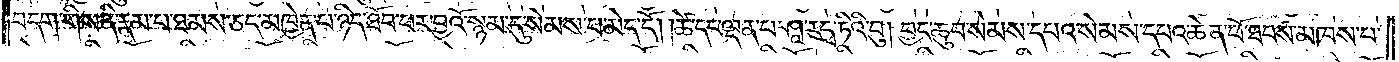བདག་གིས་ནི་རྣམ་པ་ཐམས་ཅད་མཁྱེན་པ་ཉིད་ཐོབ་པར་བྱའོ་སྙམ་དུ་སེམས་པ་མེད་དོ། །ཚེ་དང་ལྡན་པ་ཤཱ་རདྭ་ཏིའི་བུ། བྱང་ཆུབ་སེམས་དཔའ་སེམས་དཔའ་ཆེན་པོ་ཐབས་མཁས་པ་
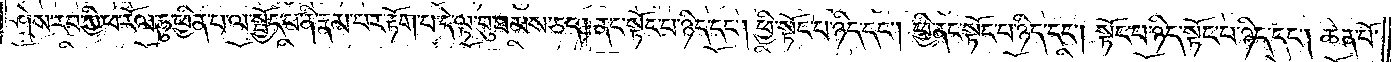ཤེས་རབ་ཀྱི་ཕ་རོལ་ཏུ་ཕྱིན་པ་ལ་སྤྱོད་པ་ནི་རྣམ་པར་རྟོག་པ་དེ་ལྟ་བུ་ཐམས་ཅད། ནང་སྟོང་པ་ཉིད་དང༌། ཕྱི་སྟོང་པ་ཉིད་དང༌། ཕྱི་ནང་སྟོང་པ་ཉིད་དང༌། སྟོང་པ་ཉིད་སྟོང་པ་ཉིད་དང༌། ཆེན་པོ་
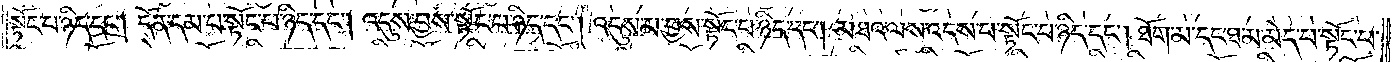སྟོང་པ་ཉིད་དང༌། དོན་དམ་པ་སྟོང་པ་ཉིད་དང༌། འདུས་བྱས་སྟོང་པ་ཉིད་དང༌། འདུས་མ་བྱས་སྟོང་པ་ཉིད་དང༌། མཐའ་ལས་འདས་པ་སྟོང་པ་ཉིད་དང༌། ཐོག་མ་དང་ཐ་མ་མེད་པ་སྟོང་པ་
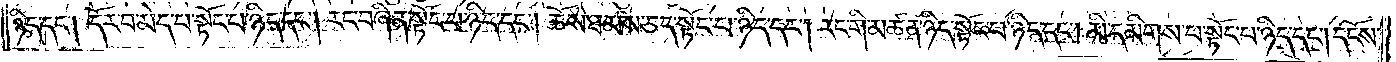ཉིད་དང༌། དོར་བ་མེད་པ་སྟོང་པ་ཉིད་དང༌། རང་བཞིན་སྟོང་པ་ཉིད་དང༌། ཆོས་ཐམས་ཅད་སྟོང་པ་ཉིད་དང༌། རང་གི་མཚན་ཉིད་སྟོང་པ་ཉིད་དང༌། མི་དམིགས་པ་སྟོང་པ་ཉིད་དང༌། དངོས་
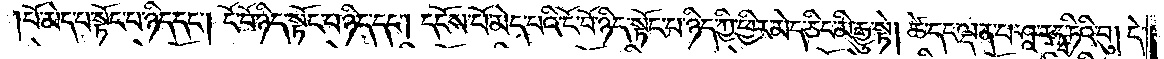པོ་མེད་པ་སྟོང་པ་ཉིད་དང༌། ངོ་བོ་ཉིད་སྟོང་པ་ཉིད་དང༌། དངོས་པོ་མེད་པའི་ངོ་བོ་ཉིད་སྟོང་པ་ཉིད་ཀྱི་ཕྱིར་མེད་ཅིང་མི་རྒྱུ་སྟེ། ཚེ་དང་ལྡན་པ་ཤཱ་རདྭ་ཏིའི་བུ། དེ་
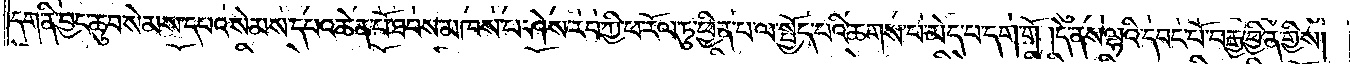དག་ནི་བྱང་ཆུབ་སེམས་དཔའ་སེམས་དཔའ་ཆེན་པོ་ཐབས་མཁས་པ་ཤེས་རབ་ཀྱི་ཕ་རོལ་ཏུ་ཕྱིན་པ་ལ་སྤྱོད་པའི་ཆགས་པ་མེད་པ་དག་གོ །དེ་ནས་ལྷའི་དབང་པོ་བརྒྱ་བྱིན་གྱིས།
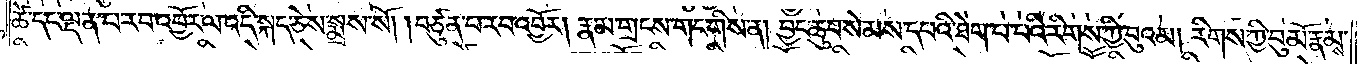ཚེ་དང་ལྡན་པ་རབ་འབྱོར་ལ་འདི་སྐད་ཅེས་སྨྲས་སོ། །བཙུན་པ་རབ་འབྱོར། རྣམ་གྲངས་གང་གིས་ན། བྱང་ཆུབ་སེམས་དཔའི་ཐེག་པ་པའི་རིགས་ཀྱི་བུའམ། རིགས་ཀྱི་བུ་མོ་རྣམས་
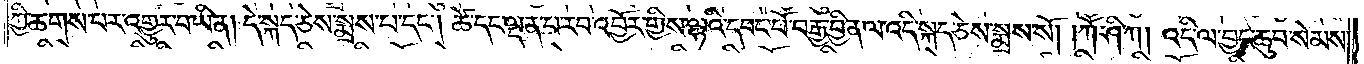ཀྱི་ཆགས་པར་འགྱུར་བ་ཡིན། དེ་སྐད་ཅེས་སྨྲས་པ་དང༌། ཚེ་དང་ལྡན་པ་རབ་འབྱོར་གྱིས་ལྷའི་དབང་པོ་བརྒྱ་བྱིན་ལ་འདི་སྐད་ཅེས་སྨྲས་སོ། །ཀཽ་ཤི་ཀ། འདི་ལ་བྱང་ཆུབ་སེམས་
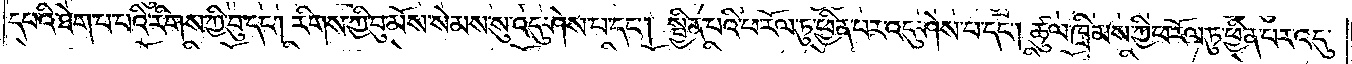དཔའི་ཐེག་པ་པའི་རིགས་ཀྱི་བུ་དང༌། རིགས་ཀྱི་བུ་མོས་སེམས་སུ་འདུ་ཤེས་པ་དང༌། སྦྱིན་པའི་ཕ་རོལ་ཏུ་ཕྱིན་པར་འདུ་ཤེས་པ་དང༌། ཚུལ་ཁྲིམས་ཀྱི་ཕ་རོལ་ཏུ་ཕྱིན་པར་འདུ་
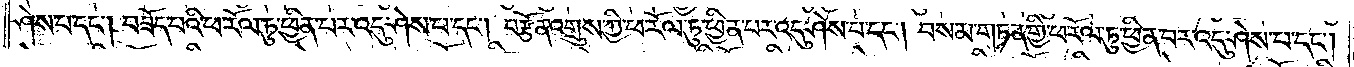ཤེས་པ་དང༌། བཟོད་པའི་ཕ་རོལ་ཏུ་ཕྱིན་པར་འདུ་ཤེས་པ་དང༌། བརྩོན་འགྲུས་ཀྱི་ཕ་རོལ་ཏུ་ཕྱིན་པར་འདུ་ཤེས་པ་དང༌། བསམ་གཏན་གྱི་ཕ་རོལ་ཏུ་ཕྱིན་པ་འདུ་ཤེས་པ་དང༌།
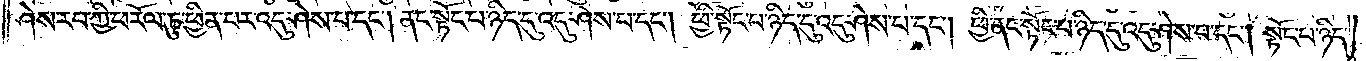ཤེས་རབ་ཀྱི་ཕ་རོལ་ཏུ་ཕྱིན་པར་འདུ་ཤེས་པ་དང༌། ནང་སྟོང་པ་ཉིད་དུ་འདུ་ཤེས་པ་དང༌། ཕྱི་སྟོང་པ་ཉིད་དུ་འདུ་ཤེས་པ་དང༌། ཕྱི་ནང་སྟོང་པ་ཉིད་དུ་འདུ་ཤེས་པ་དང༌། སྟོང་པ་ཉིད་
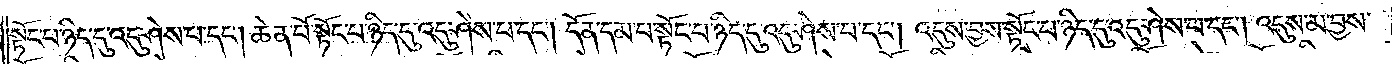སྟོང་པ་ཉིད་དུ་འདུ་ཤེས་པ་དང༌། ཆེན་པོ་སྟོང་པ་ཉིད་དུ་འདུ་ཤེས་པ་དང༌། དོན་དམ་པ་སྟོང་པ་ཉིད་དུ་འདུ་ཤེས་པ་དང༌། འདུས་བྱས་སྟོང་པ་ཉིད་དུ་འདུ་ཤེས་པ་དང༌། འདུས་མ་བྱས་
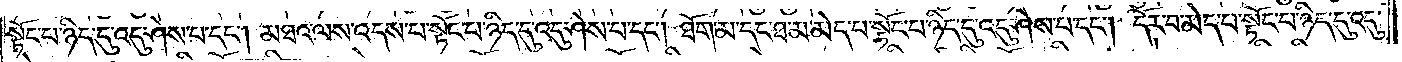སྟོང་པ་ཉིད་དུ་འདུ་ཤེས་པ་དང༌། མཐའ་ལས་འདས་པ་སྟོང་པ་ཉིད་དུ་འདུ་ཤེས་པ་དང༌། ཐོག་མ་དང་ཐ་མ་མེད་པ་སྟོང་པ་ཉིད་དུ་འདུ་ཤེས་པ་དང༌། དོར་བ་མེད་པ་སྟོང་པ་ཉིད་དུ་འདུ་
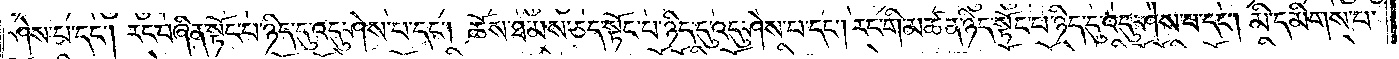ཤེས་པ་དང༌། རང་བཞིན་སྟོང་པ་ཉིད་དུ་འདུ་ཤེས་པ་དང༌། ཆོས་ཐམས་ཅད་སྟོང་པ་ཉིད་དུ་འདུ་ཤེས་པ་དང༌། རང་གི་མཚན་ཉིད་སྟོང་པ་ཉིད་དུ་འདུ་ཤེས་པ་དང༌། མི་དམིགས་པ་
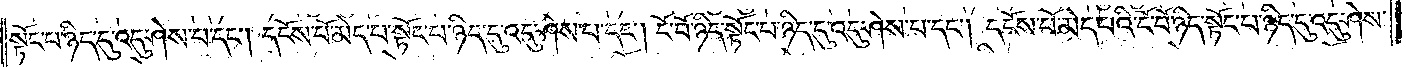སྟོང་པ་ཉིད་དུ་འདུ་ཤེས་པ་དང༌། དངོས་པོ་མེད་པ་སྟོང་པ་ཉིད་དུ་འདུ་ཤེས་པ་དང༌། ངོ་བོ་ཉིད་སྟོང་པ་ཉིད་དུ་འདུ་ཤེས་པ་དང༌། དངོས་པོ་མེད་པའི་ངོ་བོ་ཉིད་སྟོང་པ་ཉིད་དུ་འདུ་ཤེས་
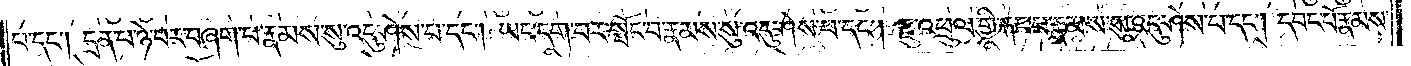པ་དང༌། དྲན་པ་ཉེ་བར་བཞག་པ་རྣམས་སུ་འདུ་ཤེས་པ་དང༌། ཡང་དག་པར་སྤོང་བ་རྣམས་སུ་འདུ་ཤེས་པ་དང༌། རྫུ་འཕྲུལ་གྱི་རྐང་པ་རྣམས་སུ་འདུ་ཤེས་པ་དང༌། དབང་པོ་རྣམས་
